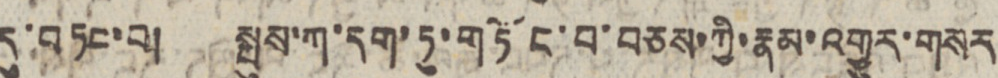དུ་བཏང་བ། སྤུས་ཀ་དག་ཏུ་གཏོང་བ་བཅས་ཀྱི་རྣམ་འགྱུར་གསར
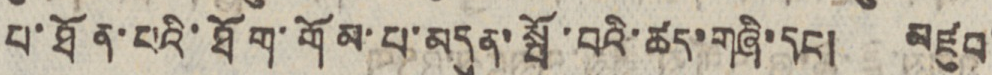པ་ཐོན་པའི་ཐོག་གོམ་པ་མདུན་སྤོ་བའི་ཚད་གཞི་དང། མཛུབ་
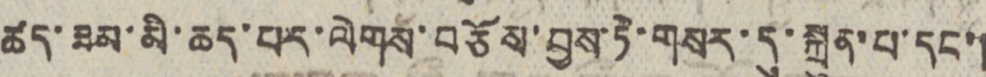ཚད་ཟམ་མི་ཆད་པར་ལེགས་བཅོས་བྱས་ཏེ་གསར་དུ་སྐྲུན་པ་དང་།
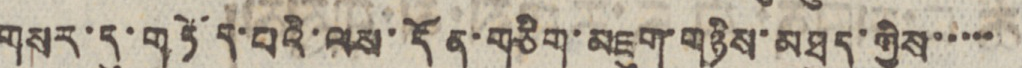གསར་དུ་གཏོད་པའི་ལས་དོན་གཅིག་མཇུག་གཉིས་མཐུད་ཀྱིས་་་་་
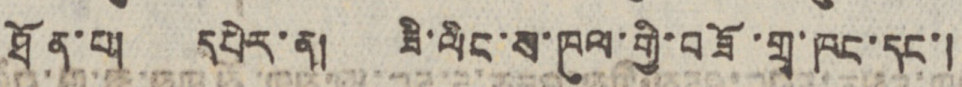ཐོན་པ། དཔེར་ན། ཟི་ལིང་ས་ཁུལ་གྱི་བཟོ་གྲྭ་ཁང་དང་།
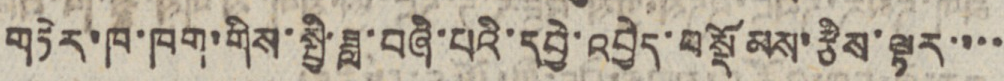གཏེར་ཁ་ཁག་གིས་སྤྱི་ཟླ་བཞི་པའི་དབྱེ་འབྱེད་བསྡོམས་རྩིས་ལྟར་་་་
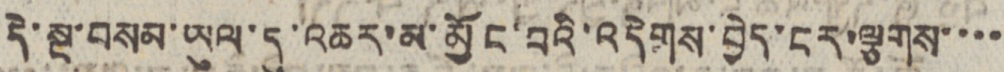དེ་སྔ་བསམ་ཡུལ་དུ་འཆར་མ་མྱོང་བའི་འདེགས་བྱེད་ངར་ལྕགས་་་་
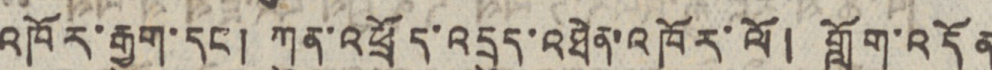འཁོར་རྒྱུག་དང། ཀུན་འཕྲོད་འདྲུད་འཐེན་འཁོར་ལོ། གློག་འདོན
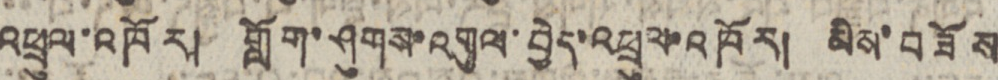འཕྲུལ་འཁོར། གློག་ཤུགས་འགུལ་བྱེད་འཕྲུལ་འཁོར། མིས་བཟོས
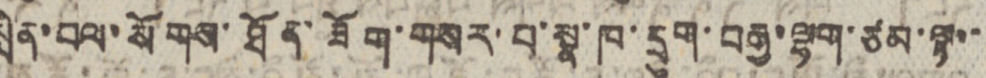སྲིན་བལ་སོགས་ཐོན་ཟོག་གསར་པ་སྣ་ཁ་དྲུག་བརྒྱ་ལྷག་ཙམ་ལྟ་་
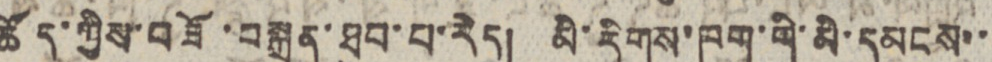ཚོད་ཀྱིས་བཟོ་བསྐྲུན་ཐུབ་པ་རེད། མི་རིགས་ཁག་གི་མི་དམངས་་
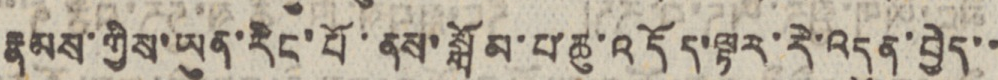རྣམས་ཀྱིས་ཡུན་རིང་པོ་ནས་སྒོམ་པ་ཆུ་འདོད་ལྟར་རེ་འདུན་བྱེད་་
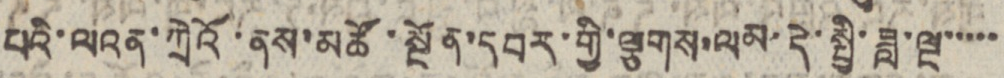པའི་ལའན་ཀྲེའོ་ནས་མཚོ་སྔོན་དབར་གྱི་ལྕགས་ལམ་དེ་སྤྱི་ཟླ་ལྔ་་་་་
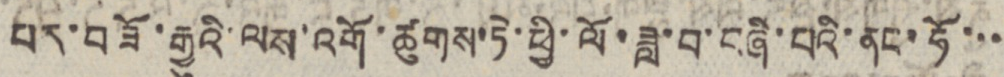པར་བཟོ་རྒྱུའི་ལས་འགོ་ཚུགས་ཏེ་ཕྱི་ལོ་ཟླ་བ་བཞི་པའི་ནང་ཧོ་་་
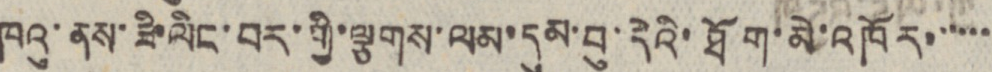ཁའུ་ནས་ཟི་ལིང་བར་གྱི་ལྕགས་ལམ་དུམ་བུ་དེའི་ཐོག་མེ་འཁོར་་་་་་
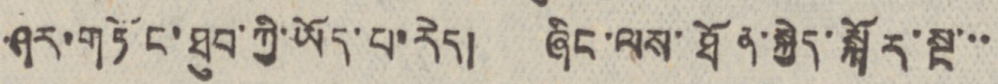ཤར་གཏོང་ཐུབ་ཀྱི་ཡོད་པ་རེད། ཞིང་ལས་ཐོན་སྐྱེད་སྐོར་སྔ་་་
